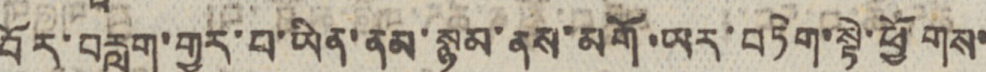བོར་བརླག་གྱུར་པ་ཡིན་ནམ་སྙམ་ནས་མགོ་ཡར་བཏེག་སྟེ་ཕྱོགས་
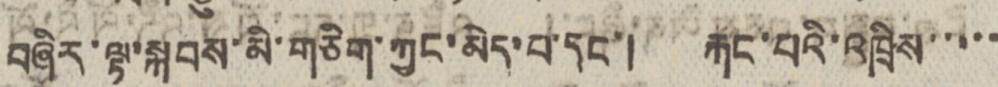བཞིར་ལྟ་སྐབས་མི་གཅིག་ཀྱང་མེད་པ་དང་། རྐང་པའི་འཁྲིས་་་་་
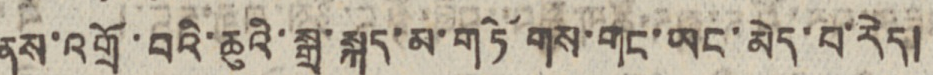ནས་འགྲོ་བའི་ཆུའི་སྒྲ་སྐད་མ་གཏོས་གང་ཡང་མེད་པ་རེད།
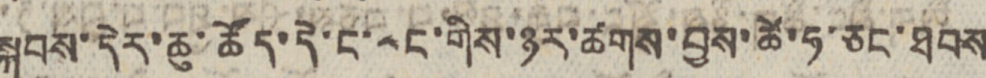སྐབས་དེར་ཆུ་ཚོད་དེ་ང་རང་གིས་ཉར་ཚགས་བྱས་ཚེ་ཧ་ཅང་ཐབས
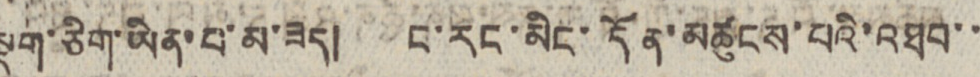སྡུག་ཅིག་ཡིན་པ་མ་ཟད། ང་རང་མིང་དོན་མཚུངས་པའི་འཐབ་་
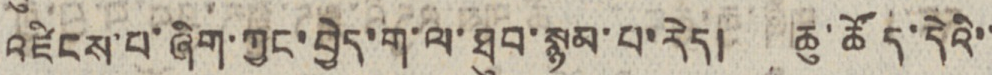འཛིངས་པ་ཞིག་ཀྱང་བྱེད་ག་ལ་ཐུབ་སྙམ་པ་རེད། ཆུ་ཚོད་དེའི་་
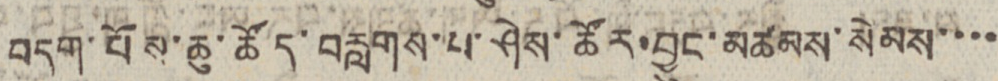བདག་པོས་ཆུ་ཚོད་བརླགས་པ་ཤེས་ཚོར་བྱུང་མཚམས་སེམས་་་་
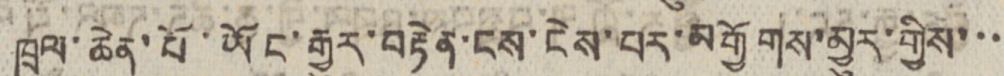ཁྲལ་ཆེན་པོ་ཡོང་རྒྱུར་བརྟེན་ངས་ངེས་པར་མགྱོགས་མྱུར་གྱིས་་་
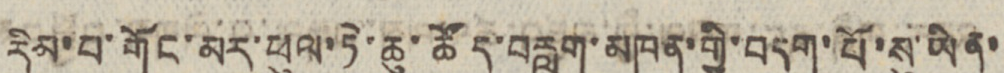རིམ་པ་གོང་མར་ཕུལ་ཏེ་ཆུ་ཚོད་བརླག་མཁན་གྱི་བདག་པོ་སུ་ཡིན་
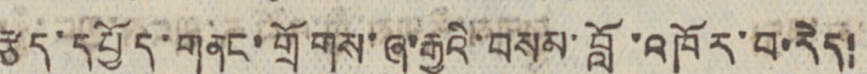རྩད་དཔྱོད་གནང་གྲོགས་ཞུ་རྒྱུའི་བསམ་བློ་འཁོར་བ་རེད།
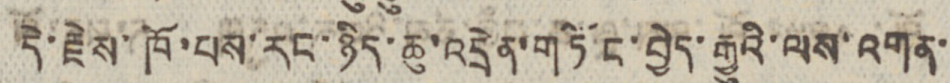དེ་རྗེས་ཁོ་པས་རང་ཉིད་ཆུ་འདྲེ་གཏོང་བྱེད་རྒྱུའི་ལས་འགན་
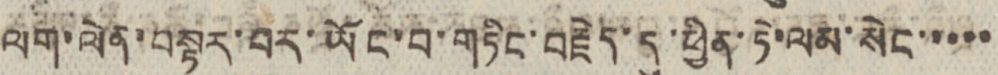ལག་ལེན་བསྟར་བར་ཡོང་བ་གཏིང་བརྗེད་དུ་ཕྱིན་ཏེ་ལམ་སེང་་་་་
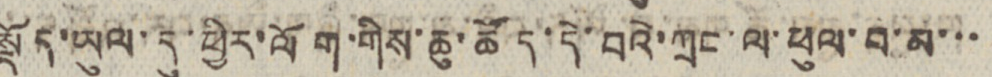སྡོད་ཡུལ་དུ་ཕྱིར་ལོག་གིས་ཆུ་ཚོད་དེ་བའི་ཀྲང་ལ་ཕུལ་བ་མ་་་
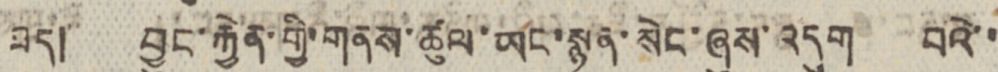ཟད། བྱུང་རྐྱེན་གྱི་གནས་ཚུལ་ཡང་སྙན་སེང་ཞུས་འདུག བའེ་་
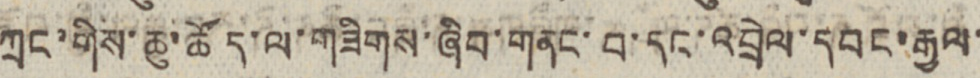ཀྲང་གིས་ཆུ་ཚོད་ལ་གཟིགས་ཞིབ་གནང་བ་དང་འབྲེལ་དབང་རྒྱལ་
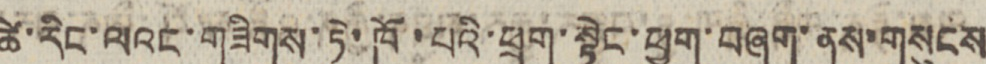ཚེ་རིང་ལའང་གཟིགས་ཏེ་ཁོ་པའི་ཕྲག་སྟེང་ཕྱག་བཞག་ནས་གསུངས
